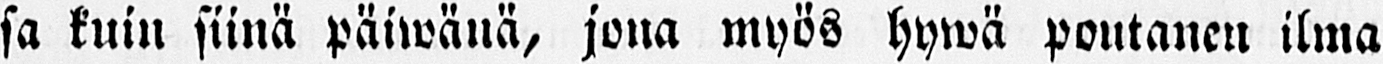sa kuin siinä päiwänä, jona myös hywä poutanen ilma
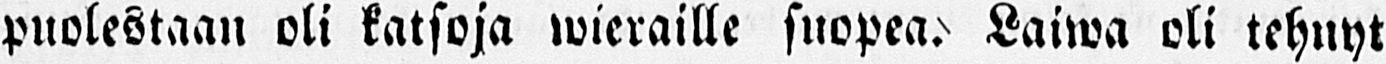puolestaan oli katsoja wieraille suopea. Laiwa oli tehnyt
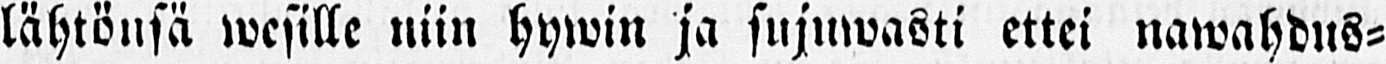lähtönsä wesille niin hywin ja sujuwasti ettei nawahdus-
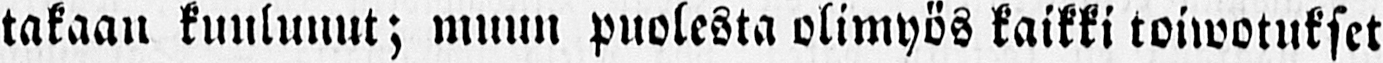takaan kuulunut; muun puolesta olimyös kaikki toiwotukset
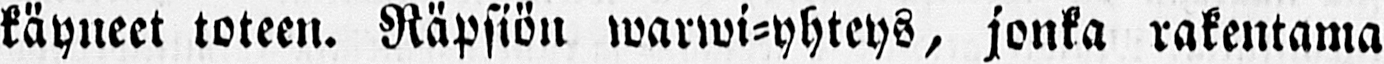käyneet toteen. Räpsiön warwi-yhteys, jonka rakentama
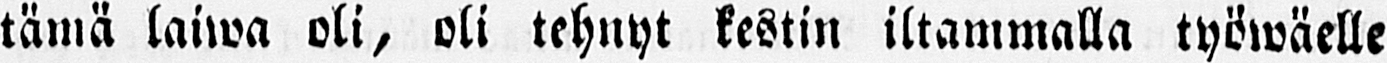tämä laiwa oli, oli tehnyt kestin iltammalla työwäelle
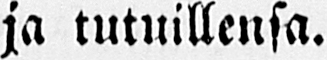ja tutuillensa.
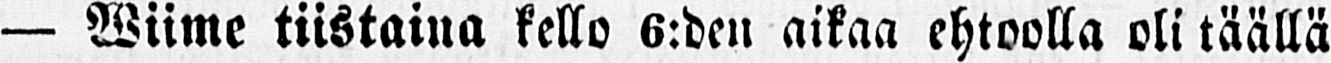— Wiime tiistaina kello 6:den aikaa ehtoolla oli täällä
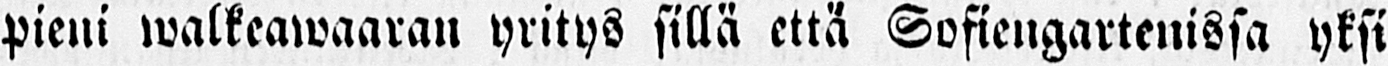pieni walkeawaaran yritys sillä että Sofiengartenissa yksi
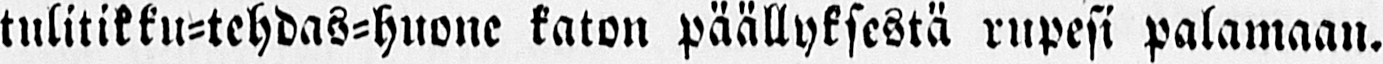tulitikku-tehdas-huone katon päällyksestä rupesi palamaan.
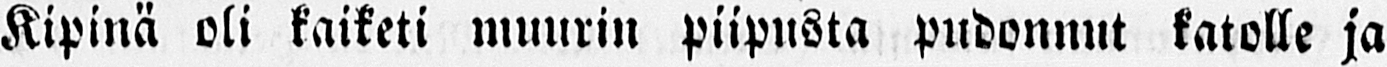Kipinä oli kaiketi muurin piipusta pudonnut katolle ja
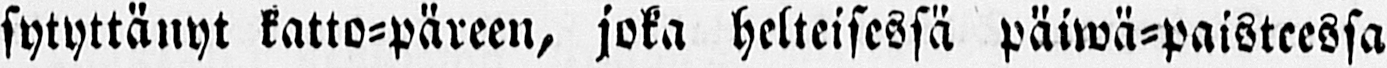sytyttänyt katto-päreen, joka helteisessä päiwä-paisteessa
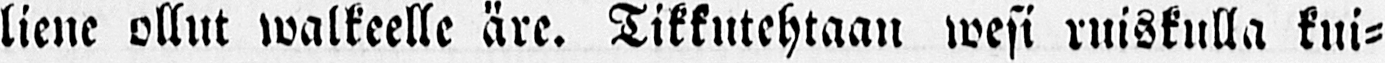liene ollut walkeelle äre. Tikkutehtaan wesi ruiskulla kui-
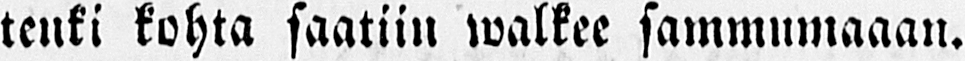tenki kohta saatiin walkee sammumaaan.
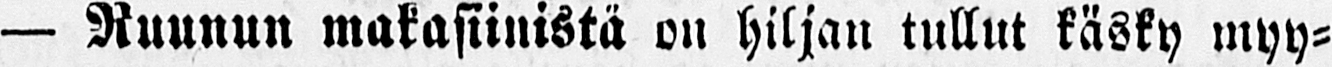— Ruunun makasiinista on hiljan tullut käsky myy-
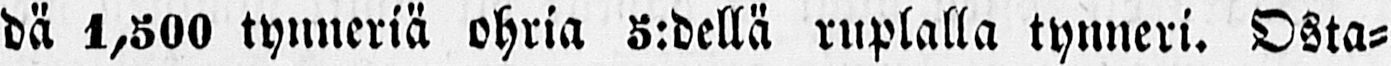dä 1,500 tynneriä ohria 5:dellä ruplalla tynneri. Osta-
